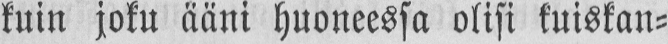kuin joku ääni huoneessa olisi kuiskan-
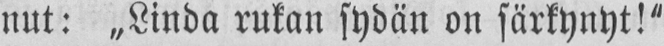nut: „Linda rukan sydän on särkynyt!"
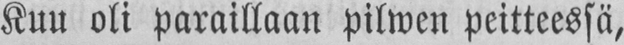Kuu oli paraillaan pilwen peitteessä,
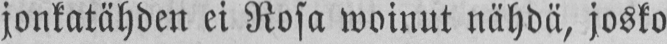jonkatähden ei Rosa woinut nähdä, josko
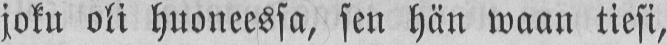joku oli huoneessa, sen hän waan tiesi,
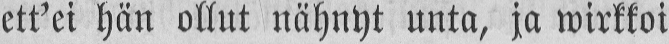ett'ei hän ollut nähnyt unta, ja wirkkoi
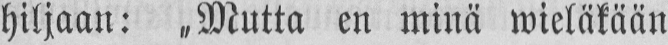Hiljaan: „Mutta en minä wieläkään
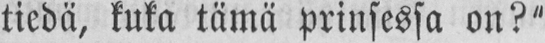tiedä, kuka tämä prinsessa on?"
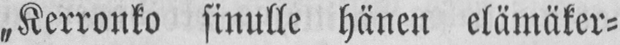„Kerronko sinulle hänen elämäker-
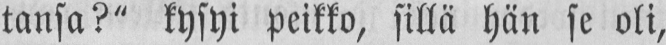tansa?" kysyi peikko, sillä hän se oli,
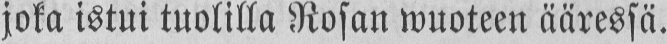joka istui tuolilla Rosan wuoteen ääressä.
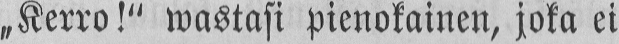„Kerro!" wastasi pienokainen, joka ei
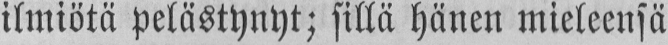ilmiötä pelästynyt; sillä hänen mieleensä
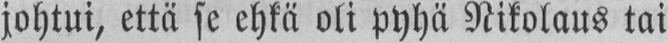johtui, että se ehkä oli pyhä Nikolaus tai
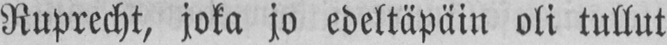Ruprecht, joka jo edeltäpäin oli tullut
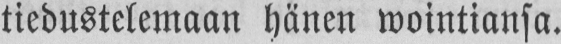tiedustelemaan hänen wointiansa.
